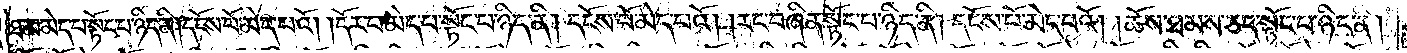ཐ་མ་མེད་པ་སྟོང་པ་ཉིད་ནི། དངོས་པོ་མེད་པའོ། །དོར་བ་མེད་པ་སྟོང་པ་ཉིད་ནི། དངོས་པོ་མེད་པའོ། །རང་བཞིན་སྟོང་པ་ཉིད་ནི། དངོས་པོ་མེད་པའོ། །ཆོས་ཐམས་ཅད་སྟོང་པ་ཉིད་ནི།
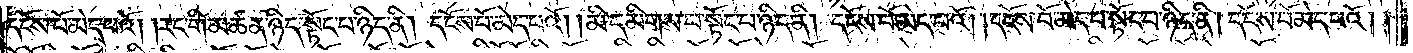དངོས་པོ་མེད་པའོ། །རང་གི་མཚན་ཉིད་སྟོང་པ་ཉིད་ནི། དངོས་པོ་མེད་པའོ། །མི་དམིགས་པ་སྟོང་པ་ཉིད་ནི། དངོས་པོ་མེད་པའོ། །དངོས་པོ་མེད་པ་སྟོང་པ་ཉིད་ནི། དངོས་པོ་མེད་པའོ། །
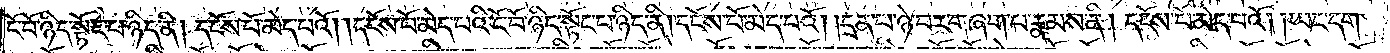ངོ་བོ་ཉིད་སྟོང་པ་ཉིད་ནི། དངོས་པོ་མེད་པའོ། །དངོས་པོ་མེད་པའི་ངོ་བོ་ཉིད་སྟོང་པ་ཉིད་ནི། དངོས་པོ་མེད་པའོ། །དྲན་པ་ཉེ་བར་གཞག་པ་རྣམས་ནི། དངོས་པོ་མེད་པའོ། །ཡང་དག་
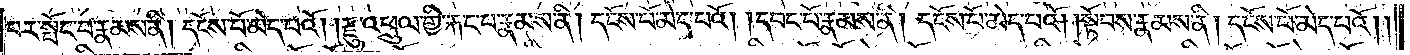པར་སྤོང་བ་རྣམས་ནི། དངོས་པོ་མེད་པའོ། །རྫུ་འཕྲུལ་གྱི་རྐང་པ་རྣམས་ནི། དངོས་པོ་མེད་པའོ། །དབང་པོ་རྣམས་ནི། དངོས་པོ་མེད་པའོ། །སྟོབས་རྣམས་ནི། དངོས་པོ་མེད་པའོ། །
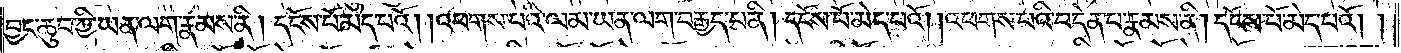བྱང་ཆུབ་ཀྱི་ཡན་ལག་རྣམས་ནི། དངོས་པོ་མེད་པའོ། །འཕགས་པའི་ལམ་ཡན་ལག་བརྒྱད་པ་ནི། དངོས་པོ་མེད་པའོ། །འཕགས་པའི་བདེན་པ་རྣམས་ནི། དངོས་པོ་མེད་པའོ༎
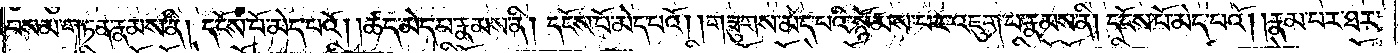བསམ་གཏན་རྣམས་ནི། དངོས་པོ་མེད་པའོ། །ཚད་མེད་པ་རྣམས་ནི། དངོས་པོ་མེད་པའོ། །གཟུགས་མེད་པའི་སྙོམས་པར་འཇུག་པ་རྣམས་ནི། དངོས་པོ་མེད་པའོ། །རྣམ་པར་ཐར་
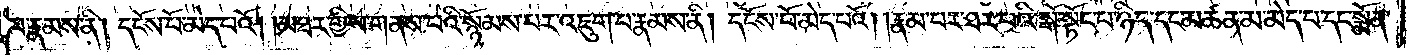པ་རྣམས་ནི། དངོས་པོ་མེད་པའོ། །མཐར་གྱིས་གནས་པའི་སྙོམས་པར་འཇུག་པ་རྣམས་ནི། དངོས་པོ་མེད་པའོ། །རྣམ་པར་ཐར་པའི་སྒོ་སྟོང་པ་ཉིད་དང་མཚན་མ་མེད་པ་དང་སྨོན་
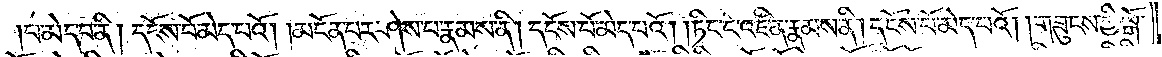པ་མེད་པ་ནི། དངོས་པོ་མེད་པའོ། །མངོན་པར་ཤེས་པ་རྣམས་ནི། དངོས་པོ་མེད་པའོ། །ཏིང་ངེ་འཛིན་རྣམས་ནི། དངོས་པོ་མེད་པའོ། །གཟུངས་ཀྱི་སྒོ་
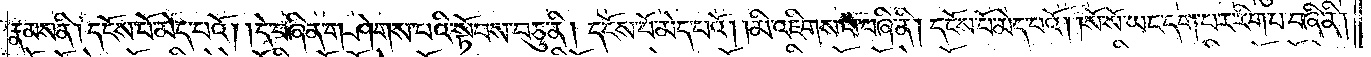རྣམས་ནི། དངོས་པོ་མེད་པའོ། །དེ་བཞིན་གཤེགས་པའི་སྟོབས་བཅུ་ནི། དངོས་པོ་མེད་པའོ། །མི་འཇིགས་པ་བཞི་ནི། དངོས་པོ་མེད་པའོ། །སོ་སོ་ཡང་དག་པར་རིག་པ་བཞི་ནི།
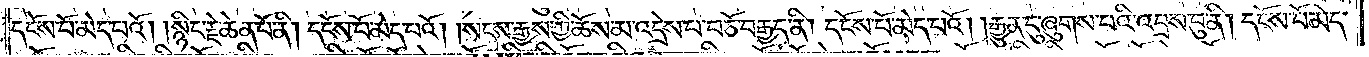དངོས་པོ་མེད་པའོ། །སྙིང་རྗེ་ཆེན་པོ་ནི། དངོས་པོ་མེད་པའོ། །སངས་རྒྱས་ཀྱི་ཆོས་མ་འདྲེས་པ་བཅོ་བརྒྱད་ནི། དངོས་པོ་མེད་པའོ། །རྒྱུན་དུ་ཞུགས་པའི་འབྲས་བུ་ནི། དངོས་པོ་མེད་
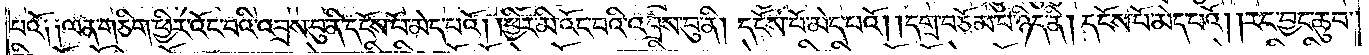པའོ༑ ༑ལན་གཅིག་ཕྱིར་འོང་བའི་འབྲས་བུ་ནི་དངོས་པོ་མེད་པའོ། །ཕྱིར་མི་འོང་བའི་འབྲས་བུ་ནི། དངོས་པོ་མེད་པའོ། །དགྲ་བཅོམ་པ་ཉིད་ནི། དངོས་པོ་མེད་པའོ། །རང་བྱང་ཆུབ་
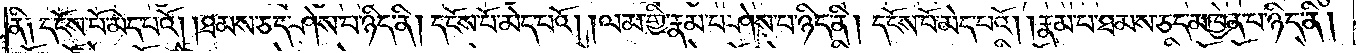ནི༑ དངོས་པོ་མེད་པའོ། །ཐམས་ཅད་ཤེས་པ་ཉིད་ནི། དངོས་པོ་མེད་པའོ། །ལམ་གྱི་རྣམ་པ་ཤེས་པ་ཉིད་ནི། དངོས་པོ་མེད་པའོ། །རྣམ་པ་ཐམས་ཅད་མཁྱེན་པ་ཉིད་ནི།
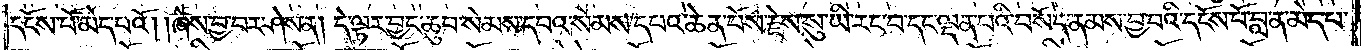དངོས་པོ་མེད་པའོ། །ཞེས་བྱ་བར་ཤེས་ན། དེ་ལྟར་བྱང་ཆུབ་སེམས་དཔའ་སེམས་དཔའ་ཆེན་པོས་རྗེས་སུ་ཡི་རང་བ་དང་ལྡན་པའི་བསོད་ནམས་བྱ་བའི་དངོས་པོ་བླ་ན་མེད་པ་
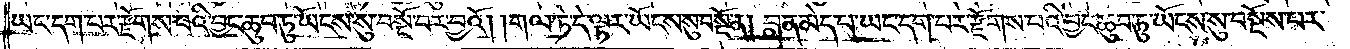ཡང་དག་པར་རྫོགས་པའི་བྱང་ཆུབ་ཏུ་ཡོངས་སུ་བསྔོ་བར་བྱའོ། །གལ་ཏེ་དེ་ལྟར་ཡོངས་སུ་བསྔོ་ན། བླ་ན་མེད་པ་ཡང་དག་པར་རྫོགས་པའི་བྱང་ཆུབ་ཏུ་ཡོངས་སུ་བསྔོས་པར་
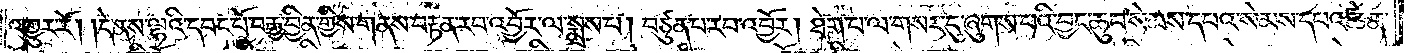འགྱུར་རོ། །དེ་ནས་ལྷའི་དབང་པོ་བརྒྱ་བྱིན་གྱིས་གནས་བརྟན་རབ་འབྱོར་ལ་སྨྲས་པ། བཙུན་པ་རབ་འབྱོར། ཐེག་པ་ལ་གསར་དུ་ཞུགས་པའི་བྱང་ཆུབ་སེམས་དཔའ་སེམས་དཔའ་ཆེན་
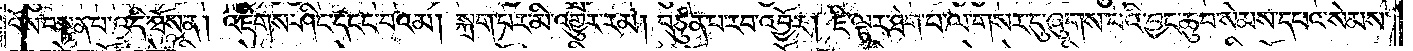པོས་བསྟན་པ་འདི་ཐོས་ན། འཇིགས་ཤིང་དངང་བའམ། སྐྲག་པར་མི་འགྱུར་རམ། བཙུན་པ་རབ་འབྱོར། ཇི་ལྟར་ཐེག་པ་ལ་གསར་དུ་ཞུགས་པའི་བྱང་ཆུབ་སེམས་དཔའ་སེམས་
